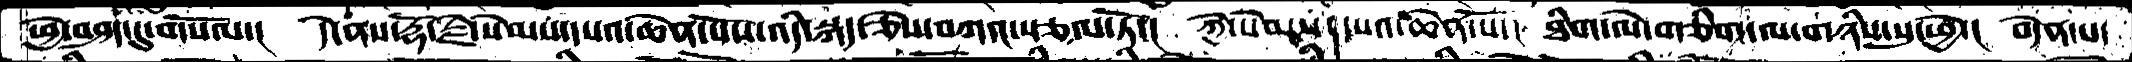ཕྱེ་བཤད་དུ་གསོལ་།  དེ་ནས་རྡོ་རྗེ་སེམས་དཔའ་ཆེན་པོས་འདི་སྐད་ཅེས་བཀའ་སྩལ་ཏོ་།  ཀྱེ་སེམས་དཔའ་ཆེན་པོ་།  ཐིག་ལེ་གཅིག་ལ་གཉིས་སུ་ཕྱེ་།  བདེན་པ་
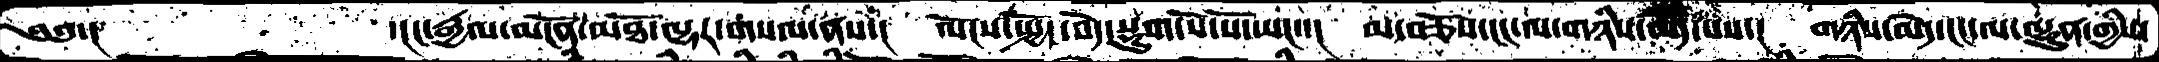༄༅་།    ་།ང་རྒྱལ་མངོན་མཐོ་ལྷར་གསལ་ནས་།  ལོངས་སྤྱོད་བདེ་སྡུག་སོ་སོ་ཡང་་།  མ་བཅོས་ངང་ལ་གཉིས་མེད་པས་།  གཉིས་མེད་ངང་ལ་ལྷུན་གྱིས་
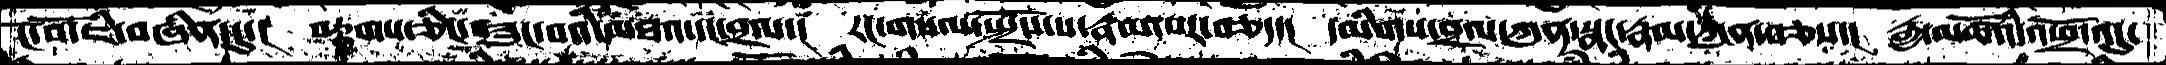ངོ་བོ་ཇི་བཞིན་དུ་།  བརྟགས་ཅིང་བཟུང་བའི་མཐའ་དང་བྲལ་།  རང་གསལ་སྤྲོས་པ་རྣམ་པར་བཅད་།  དམིགས་བྲལ་ཀུན་སྣང་རྣམ་ཀུན་བཅས་།  རྒྱ་མཚོའི་འཕྲོ་འདུ་
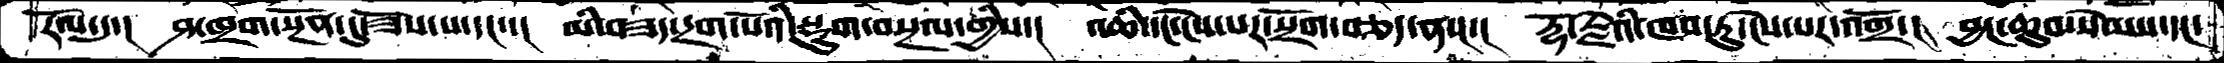རོལ་དུ་།  ཤ་ཁྲག་སྔོན་དུ་ཟོས་པ་དང་་།  མི་བཟད་དྲག་པོའི་སྡུག་བསྔལ་གྱིས་།  འཆི་དང་ངེས་པར་སྲོག་བཅད་ནས་།  རྡོ་རྗེའི་ཁབ་ཏུ་ངེས་པར་འགྲོ་།  བྱང་ཆུབ་སེམས་དང་
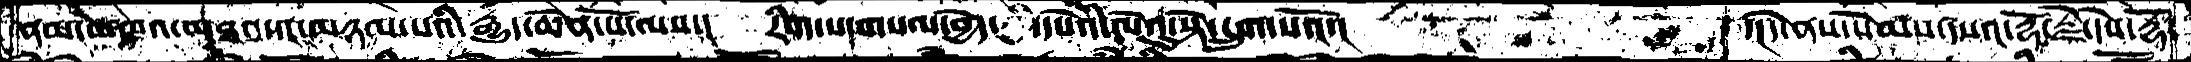ནམ་མཁའ་མཐའ་དང་མཉམ་པའི་རྒྱུད་ཆེན་པོ་ལས་།  རིག་པ་གསལ་བྱེད་ཀྱི་དཔེའི་ལེའུ་སྟེ་དྲུག་པའོ་།  ་།དེ་ནས་སེམས་དཔའ་རྡོ་རྗེ་དེས་རྡོ་
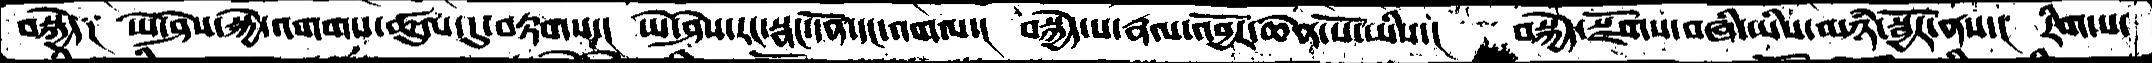བསྐྱེད༑ ཡེ་ཤེས་སྐྱེ་འགགས་ཚུལ་དུ་བརྟགས་།  ཡེ་ཤེས་རང་སྣང་དོན་དང་འགལ་།  བསྐྱེད་པ་རྣལ་འབྱོར་ཆེན་པོ་ཡིས་།  བསྐྱེད་སྫོགས་བཞི་ཡིས་མཉཾ་སྦྱོར་ནས་།  རིག་པ་
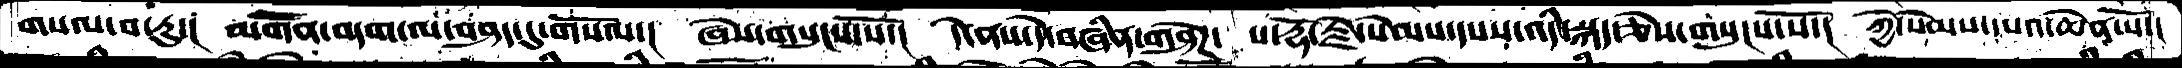གསལ་བ་རུ་།  མགོནོ་བདག་ལ་བཤད་དུ་གསོལ་།  ཞེས་གསུངས་སོ་།  དེ་ནས་དེ་བཞིན་གཤེཌ་  པ་རྡོ་རྗེ་སེམས་དཔས་འདི་སྐད་ཅེས་གསུངས་སོ་།  ཀྱེ་སེམས་དཔའ་ཆེན་པོ་།
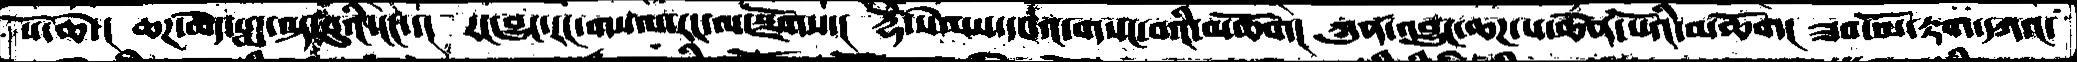པོ་ཆེ་།  ཆཌ་མེད་པདྨ་ལྟ་བུའི་ངང་་།  རང་བྱུང་རང་གསལ་རང་ལ་སྫོགས་།  རྡོེ་སེམས་དཔའ་གསང་བའི་མཆོག་།  ཀུན་འབྱུང་ཆཌ་པ་ཆེན་པོའི་མཆོག།  ཟབ་མོ་རྟག་དཀའ་
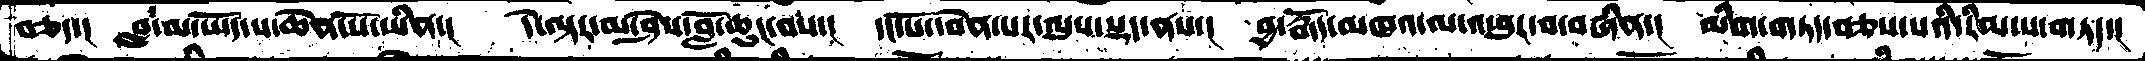བཅད་།  བླ་མ་ཡོད་པ་ཆེན་པོ་ཡིན་།  དེ་ལྟར་མ་ཤེས་བློ་ཆུང་བས་།  དང་པོ་དབེན་པར་ལུས་སྡད་ནས་།  བྱ་རྒོད་མཁའ་ལ་འཕུར་བ་བཞིན་།  མིག་གཏད་བཅས་པའི་རིམ་པ་གཏད་།
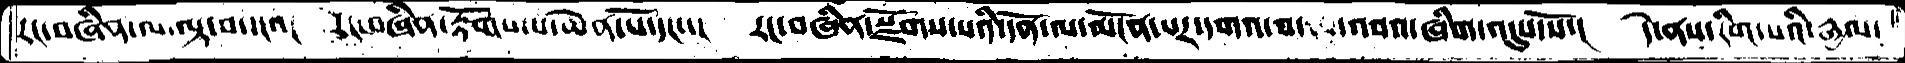རང་བཞིན་ལ་ལྟ་བ་དང་་།  རང་བཞིན་རྟོགས་པ་ཆེན་པོ་དང་་།  རང་བཞིན་སྫོགས་པའི་དོན་ལ་མངོན་པར་དགའ་བ་འབའ་ཞིག་འདུས་སོ་།  དེ་ནས་རིག་པའི་རྒྱལ་
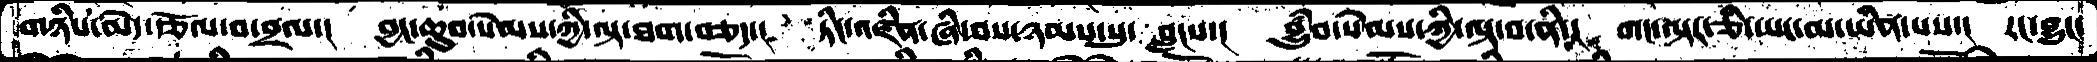གཉིས་མེད་རྩོལ་བ་བྲལ་།  བྱང་ཆུབ་སེམས་ཀྱི་ལྟ་ཐག་བཅད་།  ཏིང་འཛིན་ཞི་བས་ཉམས་སུ་བླངས་།  བྱུཾབ་སེམས་ཀྱི་ལྟ་བ་ནི་།  གང་ལྟར་ཅི་ཡང་མ་ཡིན་པས་།  རང་བྱུང་
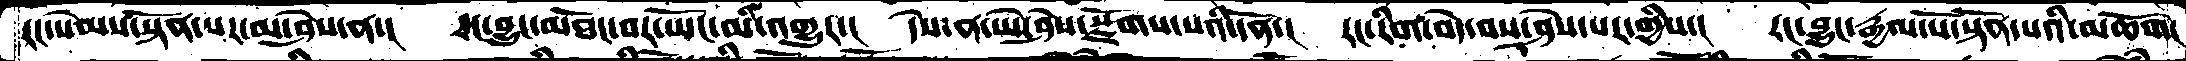རང་སེམས་སྟོན་པར་མ་ཤེས་ན་།  རང་བྱུང་མཐོང་བར་ཡོང་མི་འགྱུར་།  དེས་ན་ཡེ་ཤེས་སྫོགས་པའི་དོན་།  རང་རིག་བདེ་བས་ཤེས་པར་གྱིས་།  རང་བྱུང་རྒྱལ་པོ་སྟོན་པའི་མཆོག།
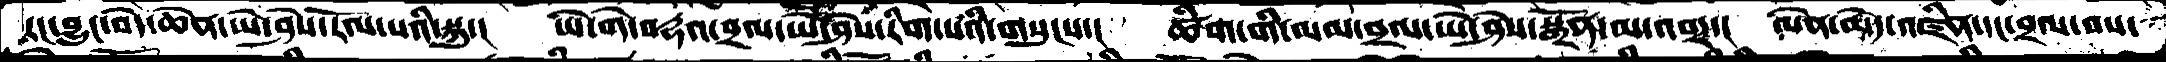རང་བྱུང་བདེ་ཆེན་ཡེ་ཤེས་རོལ་པའི་སྐུ་།   ཡེ་གེ་བརྡའ་བྲལ་ཡེ་ཤེས་རིག་པའི་གསུངས་།   ཚིག་གི་ལམ་བྲལ་ཡེ་ཤེས་སྒྲོན་མ་འབར་།  ལེན་མེད་འཛིན་དང་བྲལ་བས་
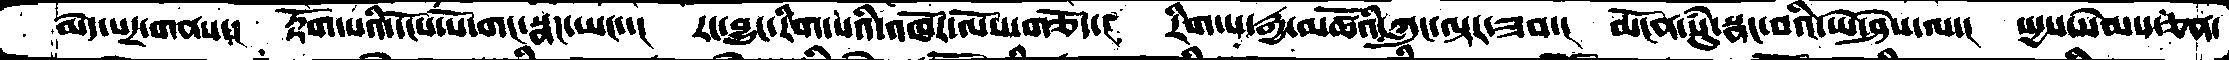མེད་པར་གནས་།  རྟོག་པའི་དངོས་པོ་གང་སྣང་ཡང་།  རང་བྱུང་རིག་པའི་འཁོར་ལོས་གཅོད་།  རིག་པ་རྒྱ་མཚོའི་ཀླུང་ལྟར་ཟབ་།  མངོན་སུཾ་སྣང་བའི་ཡེ་ཤེས་ལ་།  སདྱས་སེམས་ཅན་
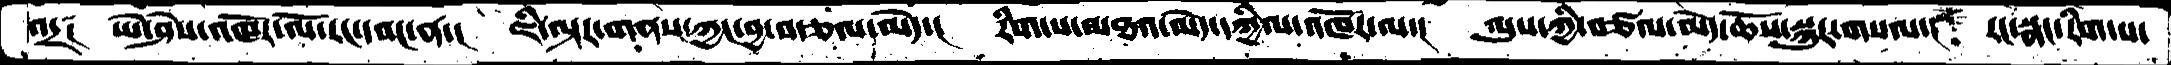འདྲ༑  ཡེ་ཤེས་འཁོར་ལོ་རང་དབང་ན་།  ཇི་ལྟར་གནས་ཀྱང་བྱ་བརྩལ་མེད་།  རིག་པ་མཐའ་མེད་དཀྱིལ་འཁོར་ལ་།  ལུས་ཀྱི་བཙལ་མེད་ཆོས་སྐུར་གསལ་།  རང་སྣང་རིག་པ་
